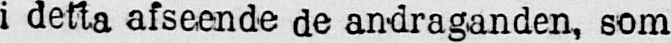i detta afseende de andraganden, som
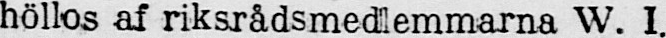höllos af riksrådsmedlemmarna W. I.
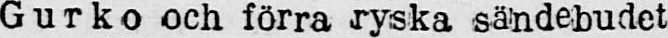Gurko och förra ryska sändebudet
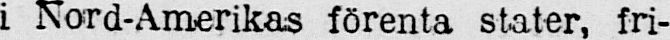i Nord-Amerikas förenta stater, fri-
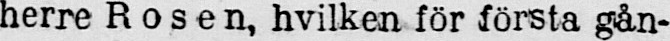herre Rosen, hvilken för första gån-
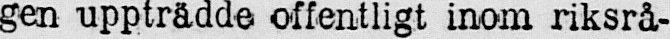gen uppträdde offentligt inom riksrå-
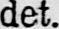det.
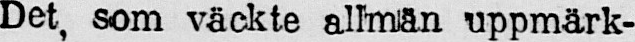Det, som väckte allmän uppmärk-
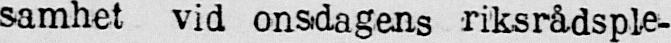samhet vid onsdagens riksrådsple-
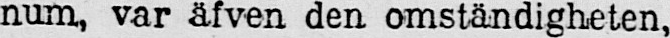num, var äfven den omständigheten,
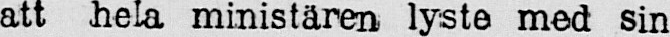att hela ministären lyste med sin
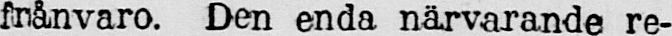frånvaro. Den enda närvarande re-
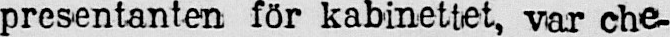presentanten för kabinettet, var che-
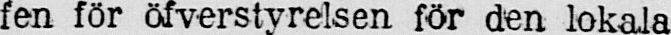fen för öfverstyrelsen för den lokala
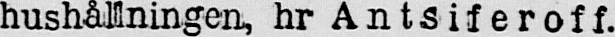hushållningen, hr Antsiferoff.
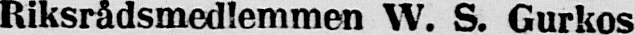Riksrådsmedlemmen W. S. Gurkos
